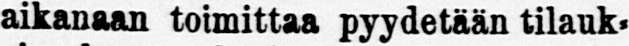aikanaan toimittaa pyydetään tilauk-
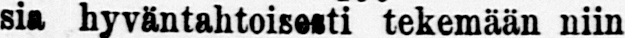sia hyväntahtoisesti tekemään niin
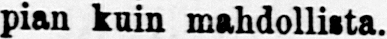pian kuin mahdollista.
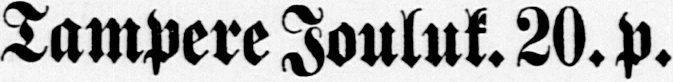Tampere Jouluk. 20. p.
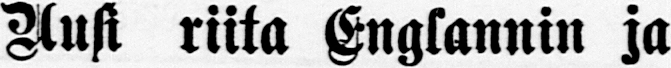Uusi riita Englannin ja
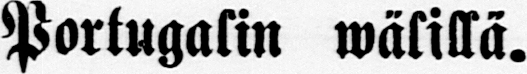Portugalin wälillä.
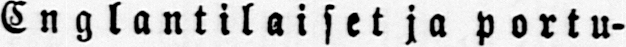Englantilaiset ja portu-
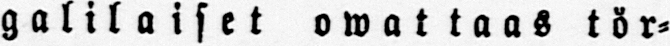galilaiset owattaas tör-
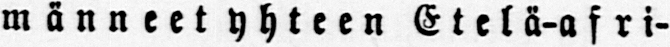männeet yhteen Etelä-afri-
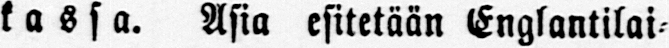kassa. Asia esitetään Englantilai-
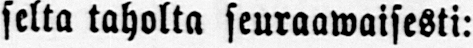selta taholta seuraawaisesti:
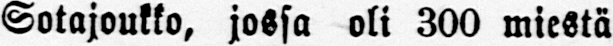Sotajoukko, jossa oli 300 miestä
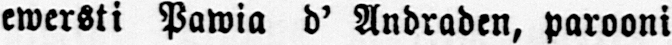ewersti Pawia d' Andraden, porooni
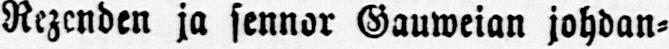Rezenden ja sennor Gauweian johdan-
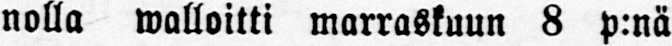nolla walloitti marraskuun 8 p:nä
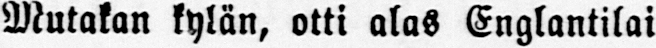Mutakan kylän, otti alas Englantilai
